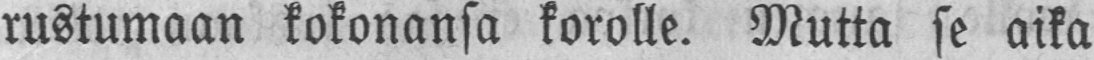rustumaan kokonansa korolle. Mutta se aika
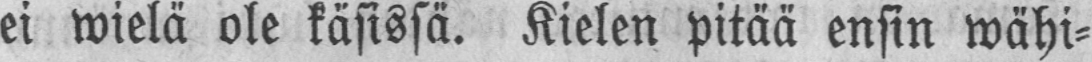ei wielä ole käsissä. Kielen pitää ensin wähi-
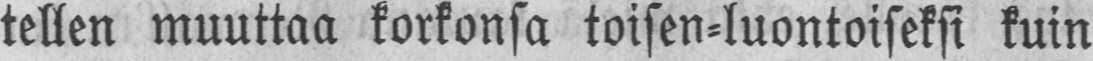tellen muuttaa korkonsa toisen-luontoiseksi kuin
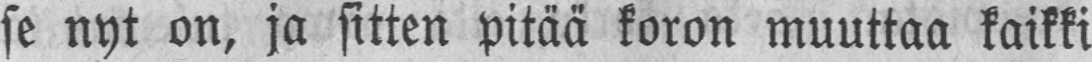se nyt on, ja sitten pitää koron muuttaa kaikki
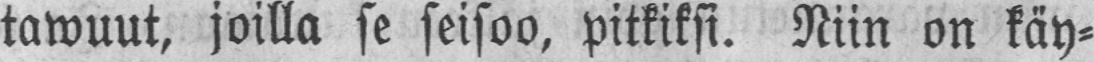tawuut, joilla se seisoo, pitkiksi. Niin on käy-
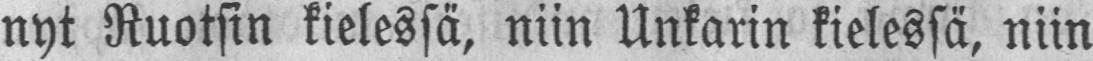nyt Ruotsin kielessä, niin Unkarin kielessä, niin
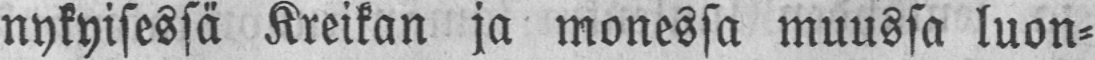nykyisessä Kreikan ja monessa muussa luon-
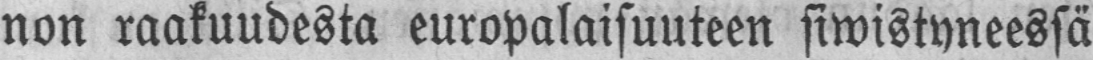non raakuudesta europalaisuuteen siwistyneessä
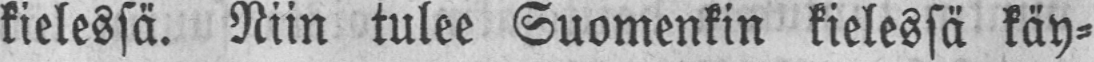kielessä. Niin tulee Suomenkin kielessä käy-
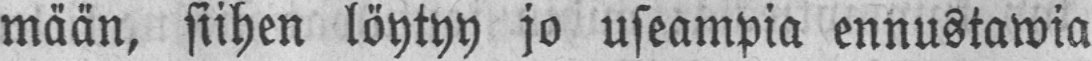mään, siihen löytyy jo useampia ennustawia
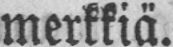merkkiä.
